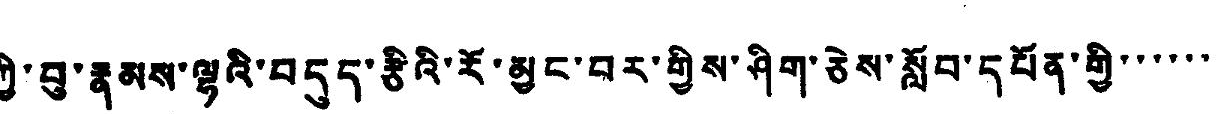ཀྱི་བུ་རྣམས་ལྷའི་བདུད་རྩིའི་རོ་མྱང་བར་གྱིས་ཤིག་ཅེས་སློབ་དཔོན་གྱི་་་་་་
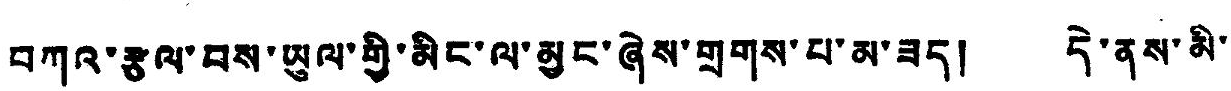བཀའ་རྩལ་བས་ཡུལ་གྱི་མིང་ལ་མྱང་ཞེས་གྲགས་པ་མ་ཟད། དེ་ནས་མི་
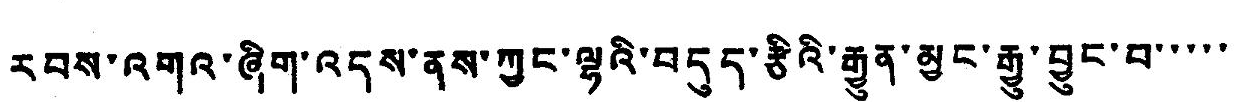རབས་འགའ་ཞིག་འདས་ནས་ཀྱང་ལྷའི་བདུད་རྩིའི་རྒྱུན་མྱང་རྒྱ་བྱུང་བ་་་་་
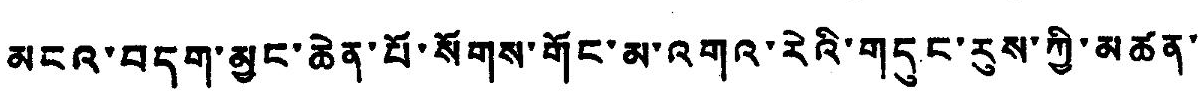མངའ་བདག་མྱང་ཆེན་པོ་སོགས་གོང་མ་འགའ་རེའི་གདུང་རུས་ཀྱི་མཚན་་
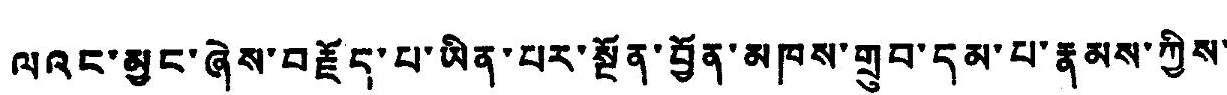ལའང་མྱང་ཞེས་བརྗོད་པ་ཡིན་པར་སྔོན་བྱོན་མཁས་གྲུབ་དམ་པ་རྣམས་ཀྱིས་
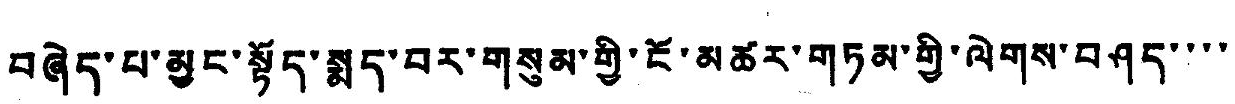བཞེད་པ་མྱང་སྟོད་སྨད་བར་གསུམ་གྱི་ངོ་མཚར་གཏན་གྱི་ལེགས་བཤད་་་་
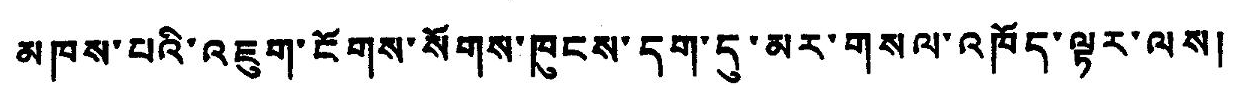མཁས་པའི་འཇུག་ངོགས་སོགས་ཁུངས་དག་དུ་མར་གསལ་འཁོད་ལྟར་ལས།
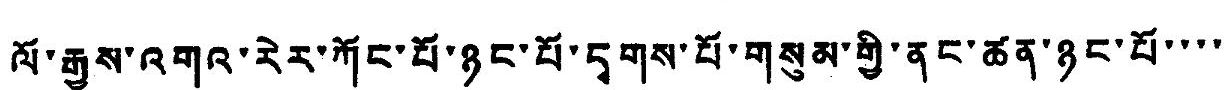ལོ་རྒྱུས་འགའ་རེར་ཀོང་པོ་ཉང་པོ་དྭགས་པོ་གསུམ་གྱི་ནང་ཚན་ཉང་པོ་་་་
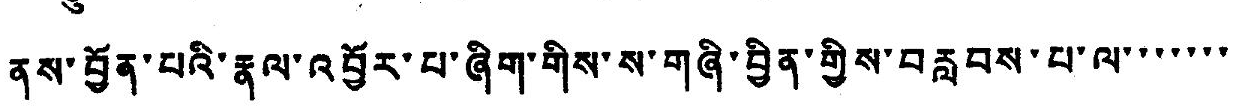ནས་བྱོན་པའི་རྣལ་འབྱོར་པ་ཞིག་གིས་ས་གཞི་བྱིན་གྱིས་བརླབས་པ་ལ་་་་་་་
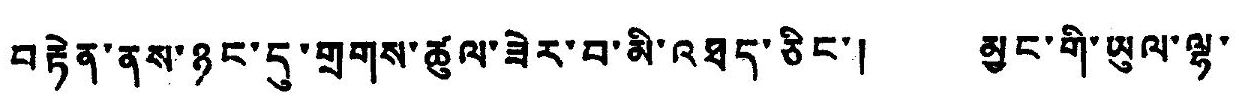བརྟེན་ནས་ཉང་དུ་གྲགས་ཚུལ་ཟེར་བ་མི་འཐད་ཅིང་། མྱང་གི་ཡུལ་ལྷ་
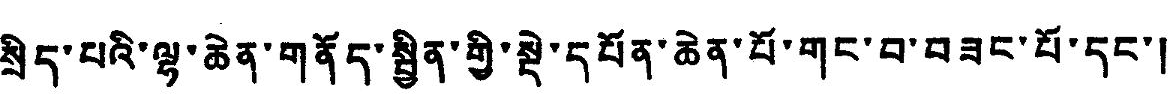སྲིད་པའི་ལྷ་ཆེན་གནོད་སྦྱིན་གྱི་སྡེ་དཔོན་ཆེན་པོ་གང་བ་བཟང་པོ་དང་།
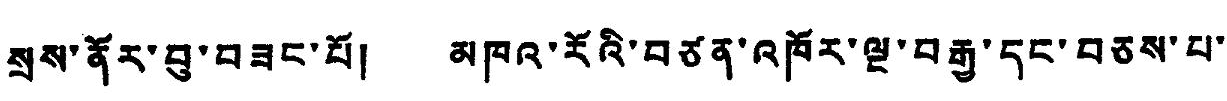སྲས་ནོར་བུ་བཟང་པོ། མཁའ་རོའི་བཙན་འཁོར་ལྔ་བརྒྱ་དང་བཅས་པ་
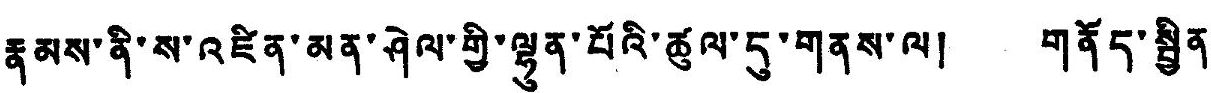རྣམས་ནི་ས་འཛིན་མན་ཤེལ་གྱི་ལྷུན་པོའི་ཚུལ་དུ་གནས་ལ། གནོད་སྦྱིན་
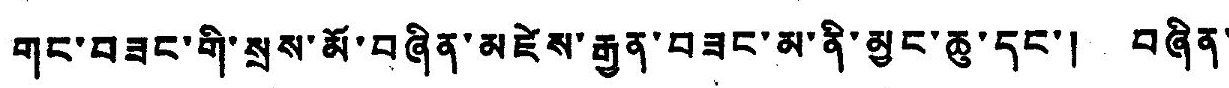གང་བཟང་གི་སྲས་མོ་བཞིན་མཛེས་རྒྱན་བཟང་མ་ནི་མྱང་ཆུ་དང་། བཞིན་
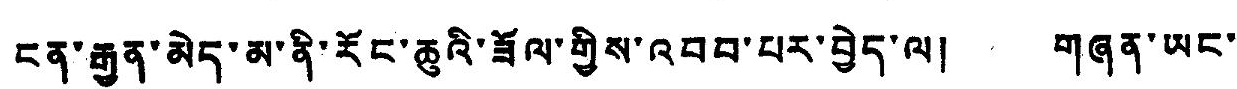ངན་རྒྱན་མེད་མ་ནི་རོང་ཆུའི་ཟོལ་གྱིས་འབབ་པར་བྱེད་ལ། གཞན་ཡང་
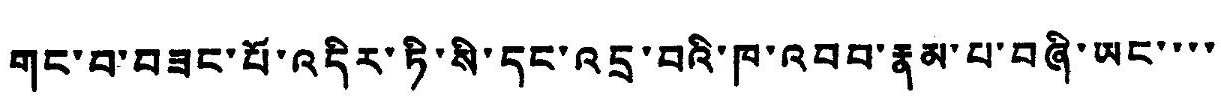གང་པ་བཟང་པོ་འདིར་ཏི་སི་དང་འདྲ་བའི་ཁ་འབབ་རྣམ་པ་བཞི་ཡང་་་་
